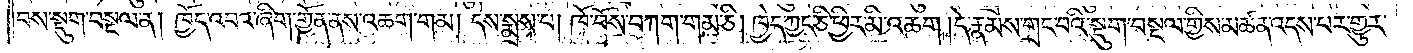བས་སྡུག་བསྔལ་ན། ཁྱོད་འབའ་ཞིག་གྱོན་ནས་འཆག་གམ། དེས་སྨྲས་པ། ཁོ་བོས་བཀག་གམ་ཅི། ཁྱེད་ཀྱང་ཅི་ཕྱིར་མི་འཆག །དེ་རྣམས་གྲང་བའི་སྡུག་བསྔལ་གྱིས་མཚན་འདས་པར་གྱུར་
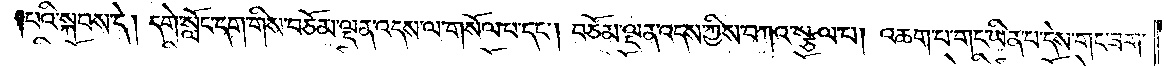པའི་སྐབས་དེ། དགེ་སློང་དག་གིས་བཅོམ་ལྡན་འདས་ལ་གསོལ་པ་དང༌། བཅོམ་ལྡན་འདས་ཀྱིས་བཀའ་སྩལ་པ། འཆག་པ་གང་ཡིན་པ་དེས་གང་ཟག་
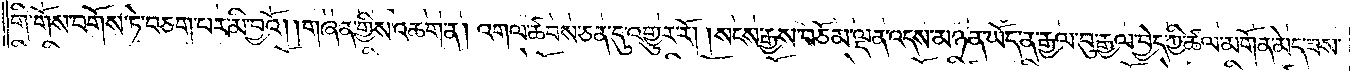གི་གོས་བགོས་ཏེ་བཅག་པར་མི་བྱའོ། །གཞན་གྱིས་འཆག་ན། འགལ་ཚབས་ཅན་དུ་འགྱུར་རོ། །སངས་རྒྱས་བཅོམ་ལྡན་འདས་མཉན་ཡོད་ན་རྒྱལ་བུ་རྒྱལ་བྱེད་ཀྱི་ཚལ་མགོན་མེད་ཟས་
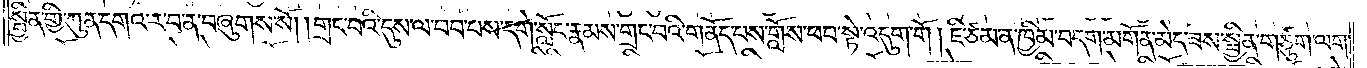སྦྱིན་གྱི་ཀུན་དགའ་ར་བ་ན་བཞུགས་སོ། །གྲང་བའི་དུས་ལ་བབ་པས་དགེ་སློང་རྣམས་གྲང་བའི་གནོད་པས་གློས་ཕབ་སྟེ་འདུག་གོ། ཇི་ཙམ་ན་ཁྱིམ་བདག་མགོན་མེད་ཟས་སྦྱིན་གཙུག་ལག་
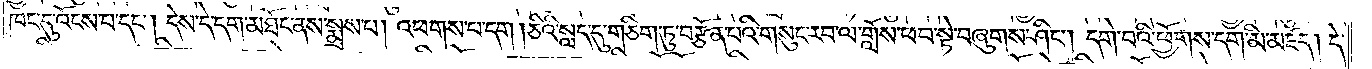ཁང་དུ་འོངས་བ་དང༌། དེས་དེ་དག་མཐོང་ནས་སྨྲས་པ། འཕགས་པ་དག །ཅིའི་སླད་དུ་གཅིག་ཏུ་བརྩོན་པའི་གསུང་རབ་ལ་གློས་ཕབ་སྟེ་བཞུགས་ཤིང༌། དགེ་བའི་ཕྱོགས་དག་མི་མཛད། དེ་
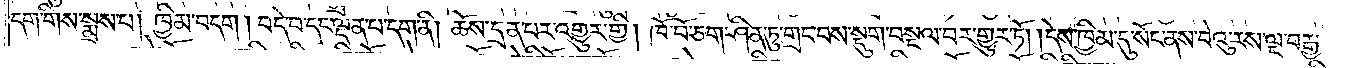དག་གིས་སྨྲས་པ། ཁྱིམ་བདག། བདེ་བ་དང་ལྡན་པ་དག་ནི། ཆོས་དྲན་པར་འགྱུར་གྱི། ཁོ་བོ་ཅག་ཤིན་ཏུ་གྲང་བས་སྡུག་བསྔལ་བར་གྱུར་ཏོ། །དེས་ཁྱིམ་དུ་སོང་ནས་བེའུ་རས་ལྔ་བརྒྱ་
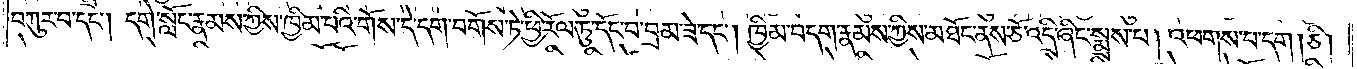བཀུར་བ་དང༌། དགེ་སློང་རྣམས་ཀྱིས་ཁྱིམ་པའི་གོས་དེ་དག་བགོས་ཏེ་ཕྱི་རོལ་ཏུ་དོང་བ་བྲམ་ཟེ་དང༌། ཁྱིམ་བདག་རྣམས་ཀྱིས་མཐོང་ནས་ཅོ་འདྲི་ཞིང་སྨྲས་པ། འཕགས་པ་དག །ཅི།
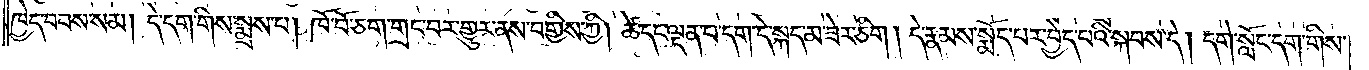ཁྱེད་བབས་སམ། དེ་དག་གིས་སྨྲས་པ། ཁོ་བོ་ཅག་གྲང་བར་གྱུར་ནས་བགྱིས་ཀྱི། ཚེ་དང་ལྡན་པ་དག་དེ་སྐད་མ་ཟེར་ཅིག། དེ་རྣམས་སྨོད་པར་བྱེད་པའི་སྐབས་དེ། དགེ་སློང་དག་གིས་
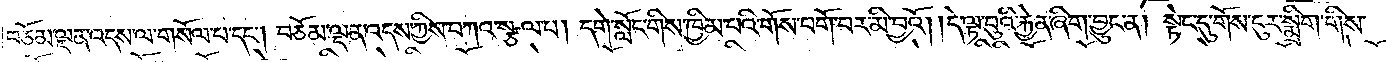བཅོམ་ལྡན་འདས་ལ་གསོལ་པ་དང༌། བཅོམ་ལྡན་འདས་ཀྱིས་བཀའ་སྩལ་པ། དགེ་སློང་གིས་ཁྱིམ་པའི་གོས་བགོ་བར་མི་བྱའོ། །དེ་ལྟ་བུའི་རྐྱེན་ཞིག་བྱུང་ན། སྟེང་དུ་གོས་ངུར་སྨྲིག་གིས་
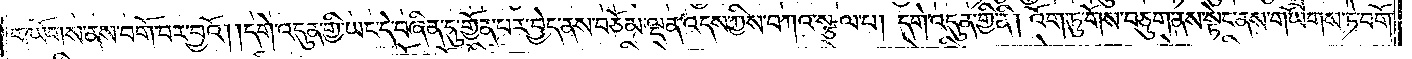གཡོགས་ནས་བགོ་བར་བྱའོ། །དགེ་འདུན་གྱི་ཡང་དེ་བཞིན་དུ་གྱོན་པར་བྱེད་ནས་བཅོམ་ལྡན་འདས་ཀྱིས་བཀའ་སྩལ་པ། དགེ་འདུན་གྱི་ནི། འོག་ཏུ་གོས་བཅུག་ནས་སྟེང་ནས་གཡོགས་ཏེ་བགོ་
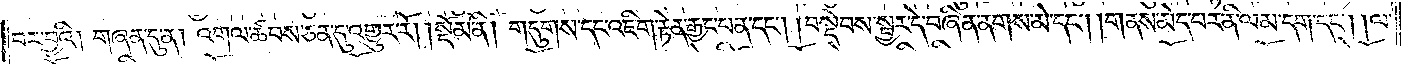བར་བྱའི། གཞན་དུ་ན། འགལ་ཚབས་ཅན་དུ་འགྱུར་རོ།    །སྡོམ་ནི། གདུགས་དང་འཇིག་རྟེན་རྒྱང་པན་དང༌། །བསྡེབས་སྦྱར་དེ་བཞིན་ནགས་མེ་དང༌། །གནས་མེད་པར་ནི་ལམ་དག་དང༌། །ལ་
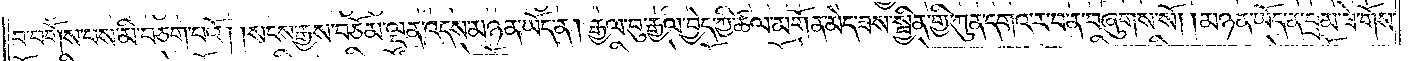བ་བགོས་པས་མི་བཅག་པའོ། །སངས་རྒྱས་བཅོམ་ལྡན་འདས་མཉན་ཡོད་ན། རྒྱལ་བུ་རྒྱལ་བྱེད་ཀྱི་ཚལ་མགོན་མེད་ཟས་སྦྱིན་གྱི་ཀུན་དགའ་ར་བ་ན་བཞུགས་སོ། །མཉན་ཡོད་ན་བྲམ་ཟེ་གོས་
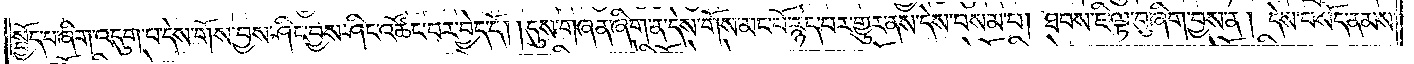སྤྱོད་པ་ཞིག་འདུག་པ་དེས་གོས་བྱས་ཤིང་བྱས་ཤིང་འཚོང་བར་བྱེད་དོ། །དུས་གཞན་ཞིག་ན་དེས་གོས་མང་པོ་རྙེད་པར་གྱུར་ནས་དེས་བསམ་པ། ཐབས་ཇི་ལྟ་བུ་ཞིག་བྱས་ན། དེས་བསོད་ནམས་
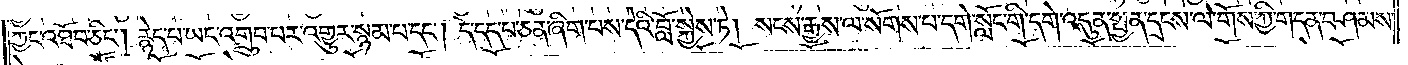ཀྱང་འཐོབ་ཅིང༌། རྙེད་པ་ཡང་འགྲུབ་པར་འགྱུར་སྙམ་པ་དང༌། དེ་དད་པ་ཅན་ཞིག་པས་དེའི་བློ་སྐྱེས་ཏེ། སངས་རྒྱས་ལ་སོགས་པ་དགེ་སློང་གི་དགེ་འདུན་སྤྱན་དྲངས་ལ་གོས་ཀྱི་གདན་བཤམས་
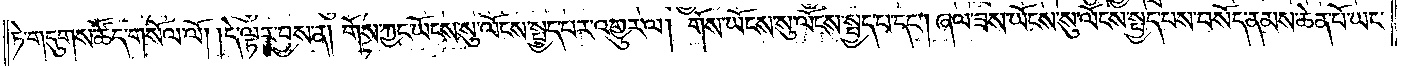ཏེ་གདུགས་ཚོད་གསོལ་ལོ། །དེ་ལྟར་བྱས་ན། གོས་ཀྱང་ཡོངས་སུ་ལོངས་སྤྱད་པར་འགྱུར་ལ། གོས་ཡོངས་སུ་ལོངས་སྤྱད་པ་དང༌། ཞལ་ཟས་ཡོངས་སུ་ལོངས་སྤྱད་པས་བསོད་ནམས་ཆེན་པོ་ཡང་
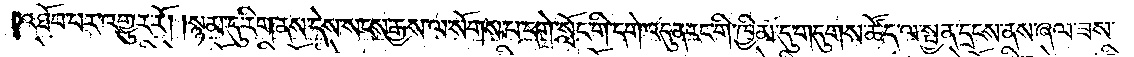འཐོབ་པར་འགྱུར་རོ། །སྙམ་དུ་རིག་ནས་དེས་སངས་རྒྱས་ལ་སོགས་པ་དགེ་སློང་གི་དགེ་འདུན་རང་གི་ཁྱིམ་དུ་གདུགས་ཚོད་ལ་སྤྱན་དྲངས་ནས་ཞལ་ཟས་
